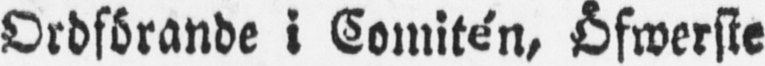Ordförande i Comitén, Öfwerste
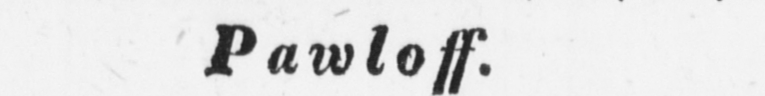Pawloff.
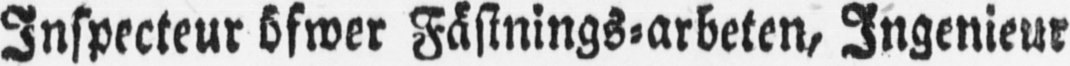Inspecteur öfwer Fästnings-arbeten, Ingenieur
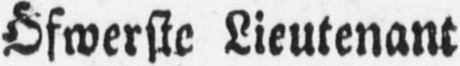Öfwerste Lieutenant
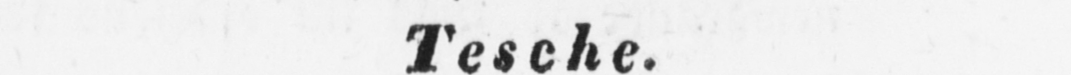Tesche.
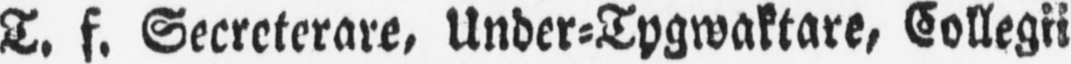T. f. Secreterare, Under-Tygwaktare, Collegii
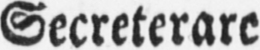Secreterare
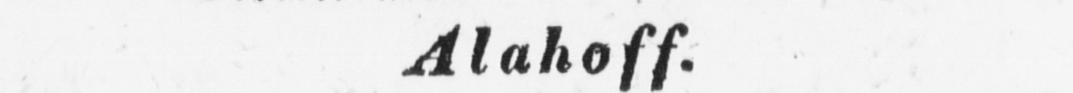Alahoff.
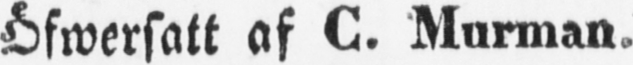Öfwersatt af C. Murman.
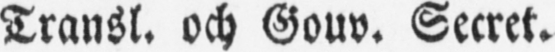Transl. och Gouv. Secret.
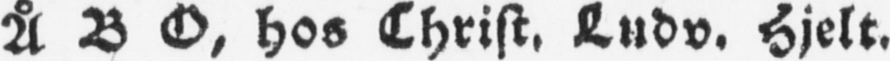Å B O, hos Christ. Ludv. Hjelt.
